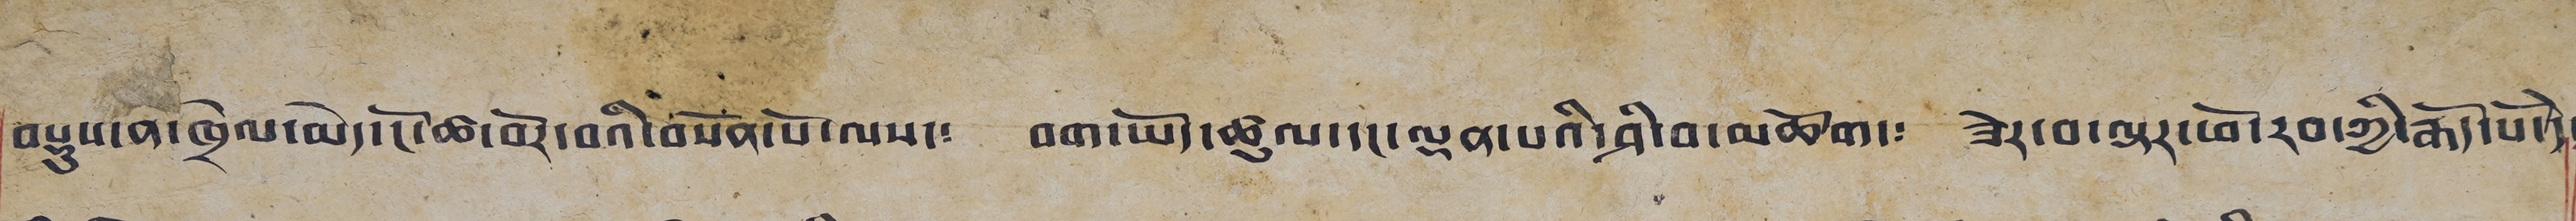བསྡུས་ན་ཁྲེལ་མེད་ངོ་ཚ་བོར་བའི་བསོན་པོ་ལས་༴ བག་ཡོད་ཚུལ་དང་ལྡན་པའི་ཤི་བ་མཆོག་༴ ཟེར་བ་ལྟར་ཕོ་རབ་ཀྱི་རྒོད་པོ་དེ་
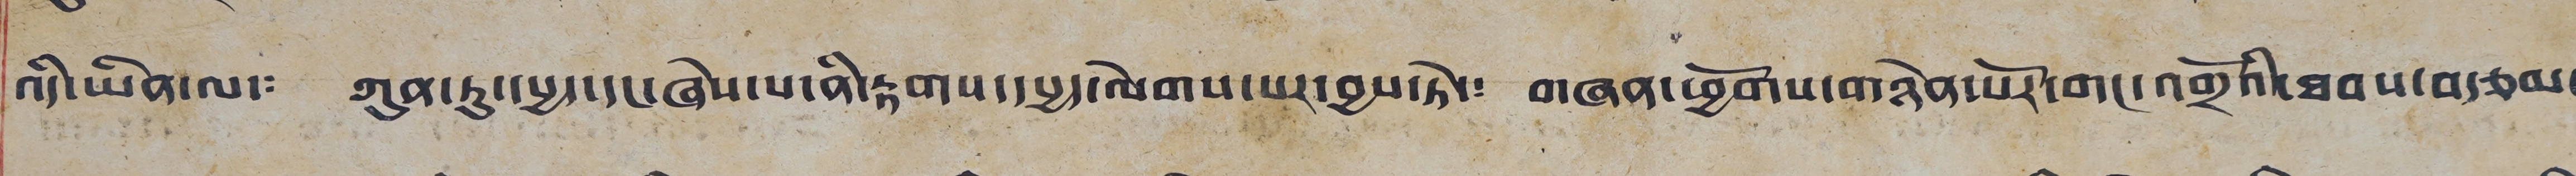འདི་ཡིན་ལ་༴ ཀུན་ཏུ་དཔྱད་དང་ཞེས་པ་ནི་རྟགས་དཔྱད་ལེགས་པར་བྱས་ཏེ་༴ གཞན་ཕྱོགས་གཉེན་ཡོར་གང་འགྲོའི་ཐབས་བཙལ་
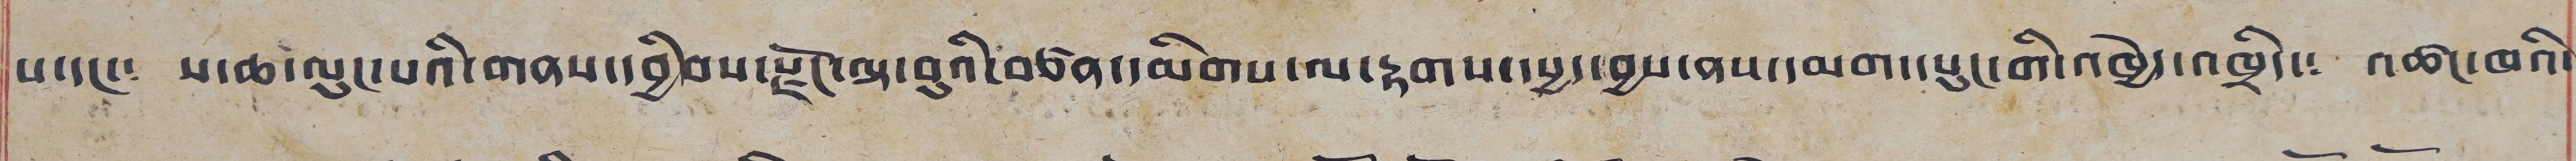པ་དང་༴ ས་ཆ་ལུང་པའི་གནས་དབྱིབས་ལྗོང་ལྟ་བུའི་བཙན་དམིགས་ལ་རྟགས་དཔྱད་བྱས་ནས་དམག་དཔུང་གི་འཁྱེད་འཁྲིད་༴ འཚང་ཁའི་
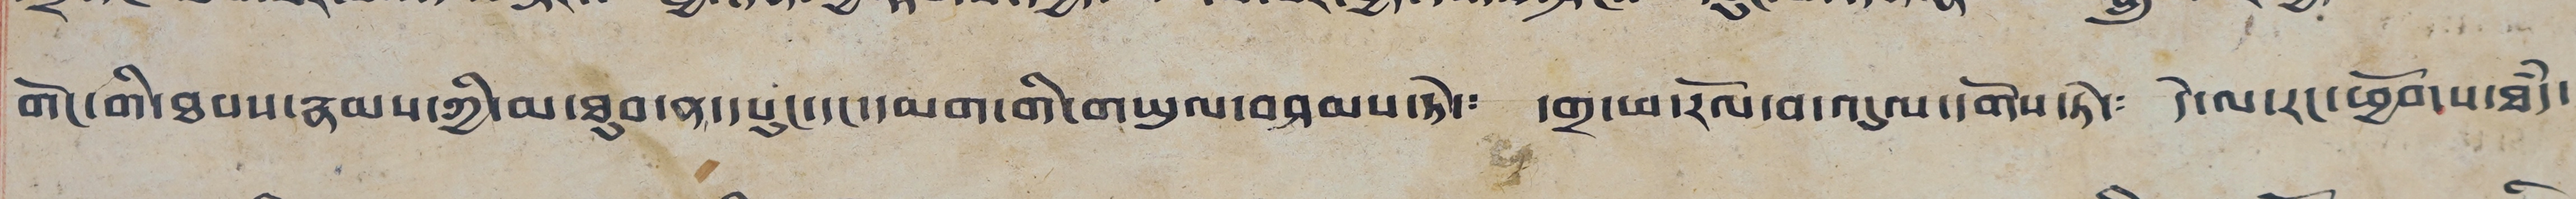གོང་གི་ཐབས་རྣམས་ཀྱི་མ་ཐུབ་ན་དཔུང་དང་དམག་གི་གཡུལ་བཤམས་ཏེ་༴ དགྲ་ཕ་རོལ་བ་འདུལ་དགོས་ཏེ་༴ དེ་ལ་རང་ཕྱོགས་ཐཾད་
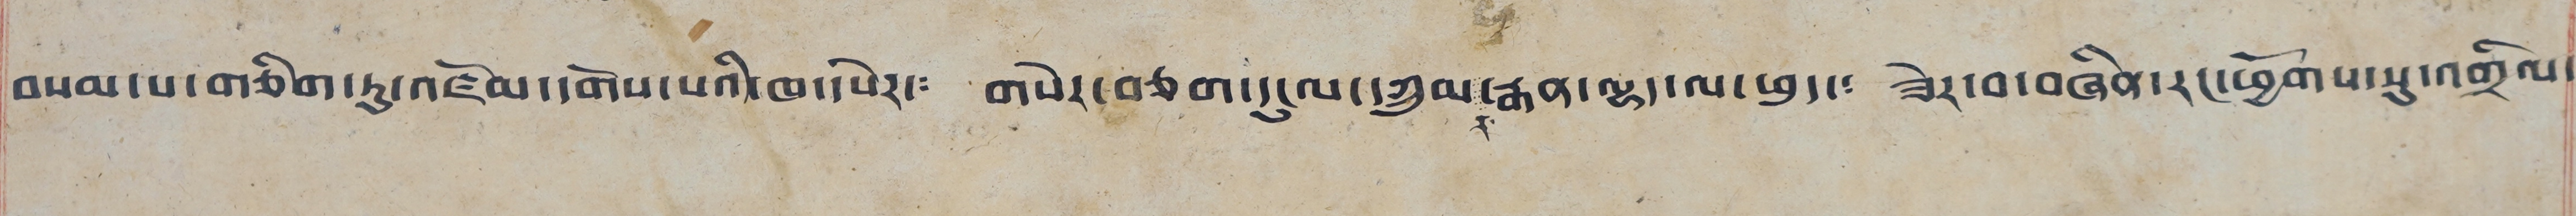བསམ་པ་གཅིག་ཏུ་འཛོམ་དགོས་པའི་ཁ་དཔེར་༴ གསེར་བཅག་དངུལ་དཀྲུམ་ར་རྒན་ལྷད་ལ་ཕྲད་༴ ཟེར་བ་བཞིན་རང་ཕྱོགས་སུ་འགྲིལ་
